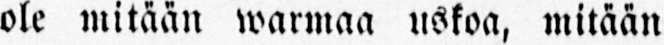ole mitään warmaa uskoa, mitään
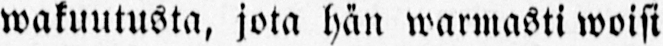wakuutusta, jota hän warmasti woisi
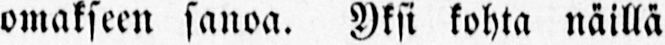omakseen sanoa. Yksi kohta näillä
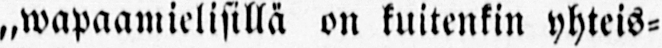,,wapaamielisillä on kuitenkin yhteis-
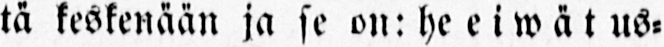tä keskenään ja se on: he eiwät us-
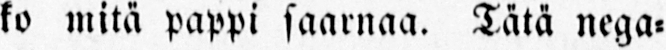ko mitä pappi saarnaa. Tätä nega-
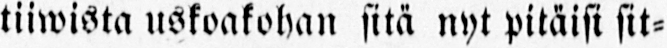tiiwista uskoakohan sitä nyt pitäisi sit-
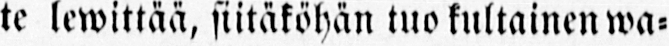te lewittää, siitäköhän tuo kultainen wa-
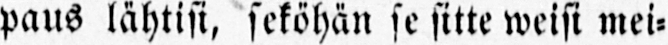paus lähtisi, seköhän se sitte weisi mei-
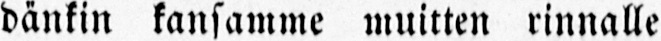dänkin kansamme muitten rinnalle
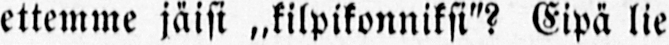ettemme jäisi ..kilpikonniksi"? Eipä lie
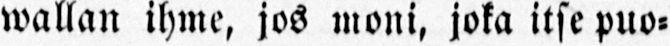wallan ihme, jos moni, joka itse puo-
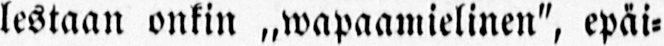lestaan onkin ..wapaamielinen", epäi-
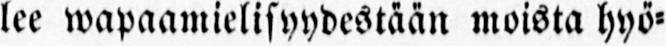lee wapaamielisyydestään moista hyö-
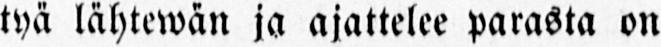tyä lähtewän ja ajattelee parasta on
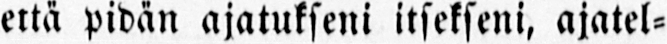että pidän ajatukseni itsekseni, ajatel-
